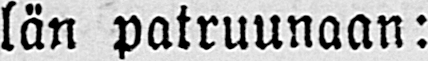län patruunaan:
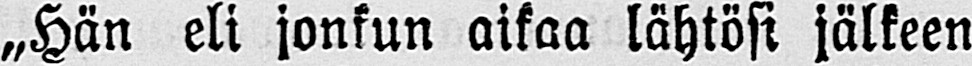„Hän eli jonkun aikaa lähtösi jälkeen
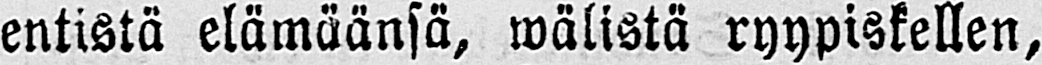entistä elämäänsä, wälistä ryypiskellen,
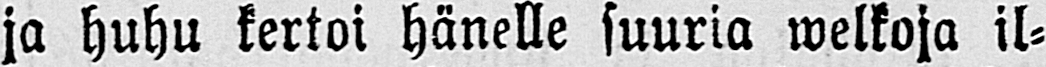ja huhu kertoi hänelle suuria welkoja il-
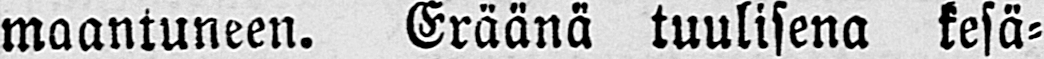maantuneen. Eräänä tuulisena kesä-
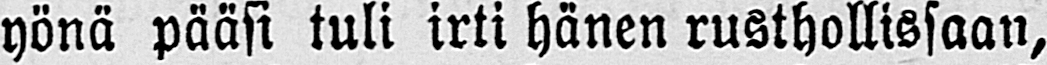yönä pääsi tuli irti hänen rusthollissaan,
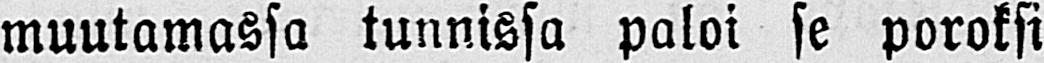muutamassa tunnissa paloi se poroksi
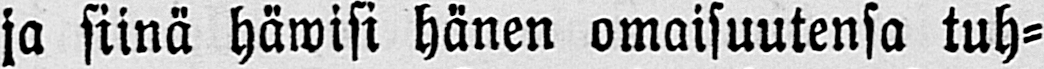ja siinä häwisi hänen omaisuutensa tuh-
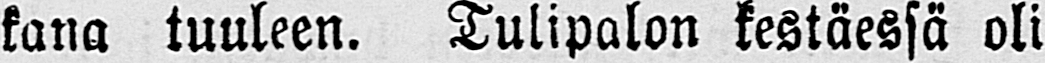kana tuuleen. Tulipalon kestäessä oli
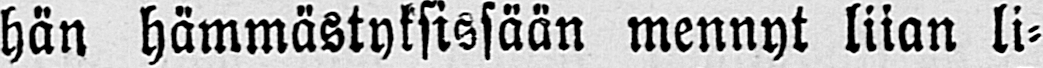hän hämmästyksissään mennyt liian li-
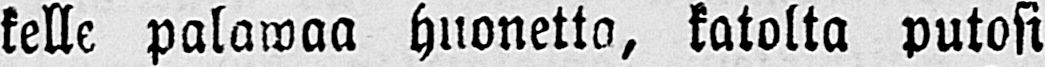kelle palawaa huonetta, katolta putosi
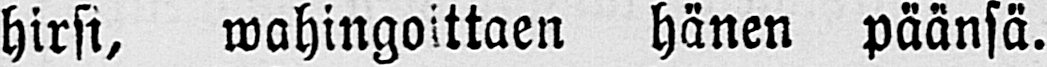hirsi, wahingoittaen hänen päänsä.
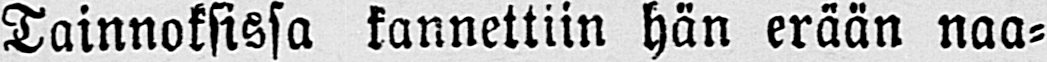Tainnoksissa kannettiin hän erään naa-
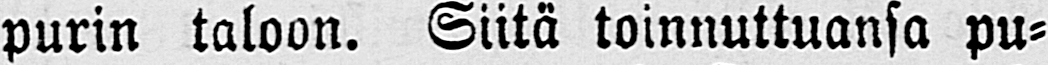purin taloon. Siitä toinnuttuansa pu-
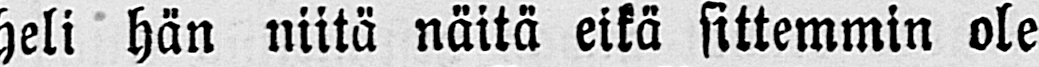heli hän niitä näitä eikä sittemmin ole
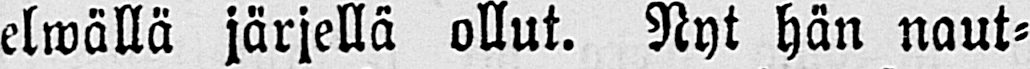selwällä järjellä ollut. Nyt hän naut-
